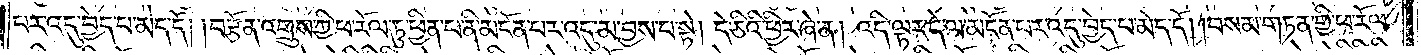པར་འདུ་བྱེད་པ་མེད་དོ། །བརྩོན་འགྲུས་ཀྱི་ཕ་རོལ་ཏུ་ཕྱིན་པ་ནི་མངོན་པར་འདུ་མ་བྱས་པ་སྟེ། དེ་ཅིའི་ཕྱིར་ཞེ་ན། འདི་ལྟར་དེ་ལ་མངོན་པར་འདུ་བྱེད་པ་མེད་དོ། །བསམ་གཏན་གྱི་ཕ་རོལ་
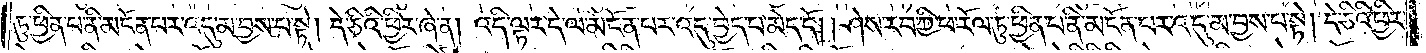ཏུ་ཕྱིན་པ་ནི་མངོན་པར་འདུ་མ་བྱས་པ་སྟེ། དེ་ཅིའི་ཕྱིར་ཞེ་ན། འདི་ལྟར་དེ་ལ་མངོན་པར་འདུ་བྱེད་པ་མེད་དོ། །ཤེས་རབ་ཀྱི་ཕ་རོལ་ཏུ་ཕྱིན་པ་ནི་མངོན་པར་འདུ་མ་བྱས་པ་སྟེ། དེ་ཅིའི་ཕྱིར་
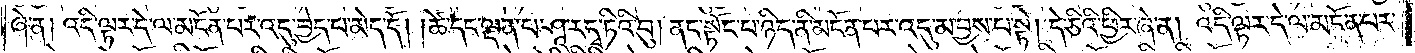ཞེ་ན། འདི་ལྟར་དེ་ལ་མངོན་པར་འདུ་བྱེད་པ་མེད་དོ། །ཚེ་དང་ལྡན་པ་ཤཱ་ར་དྭ་ཏིའི་བུ། ནང་སྟོང་པ་ཉིད་ནི་མངོན་པར་འདུ་མ་བྱས་པ་སྟེ། དེ་ཅིའི་ཕྱིར་ཞེ་ན། འདི་ལྟར་དེ་ལ་མངོན་པར་
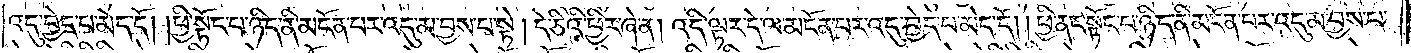འདུ་བྱེད་པ་མེད་དོ། །ཕྱི་སྟོང་པ་ཉིད་ནི་མངོན་པར་འདུ་མ་བྱས་པ་སྟེ། དེ་ཅིའི་ཕྱིར་ཞེ་ན། འདི་ལྟར་དེ་ལ་མངོན་པར་འདུ་བྱེད་པ་མེད་དོ། །ཕྱི་ནང་སྟོང་པ་ཉིད་ནི་མངོན་པར་འདུ་མ་བྱས་པ་
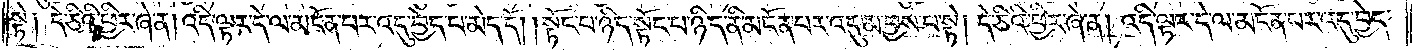སྟེ༑ དེ་ཅིའི་ཕྱིར་ཞེ་ན། འདི་ལྟར་དེ་ལ་མངོན་པར་འདུ་བྱེད་པ་མེད་དོ། །སྟོང་པ་ཉིད་སྟོང་པ་ཉིད་ནི་མངོན་པར་འདུ་མ་བྱས་པ་སྟེ། དེ་ཅིའི་ཕྱིར་ཞེ་ན། འདི་ལྟར་དེ་ལ་མངོན་པར་འདུ་བྱེད་
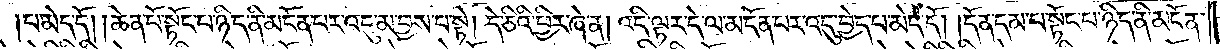པ་མེད་དོ། །ཆེན་པོ་སྟོང་པ་ཉིད་ནི་མངོན་པར་འདུ་མ་བྱས་པ་སྟེ། དེ་ཅིའི་ཕྱིར་ཞེ་ན། འདི་ལྟར་དེ་ལ་མངོན་པར་འདུ་བྱེད་པ་མེད་དོ། །དོན་དམ་པ་སྟོང་པ་ཉིད་ནི་མངོན་
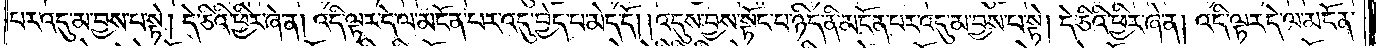པར་འདུ་མ་བྱས་པ་སྟེ། དེ་ཅིའི་ཕྱིར་ཞེ་ན། འདི་ལྟར་དེ་ལ་མངོན་པར་འདུ་བྱེད་པ་མེད་དོ། །འདུས་བྱས་སྟོང་པ་ཉིད་ནི་མངོན་པར་འདུ་མ་བྱས་པ་སྟེ། དེ་ཅིའི་ཕྱིར་ཞེ་ན། འདི་ལྟར་དེ་ལ་མངོན་
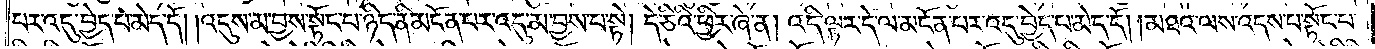པར་འདུ་བྱེད་པ་མེད་དོ། །འདུས་མ་བྱས་སྟོང་པ་ཉིད་ནི་མངོན་པར་འདུ་མ་བྱས་པ་སྟེ། དེ་ཅིའི་ཕྱིར་ཞེ་ན། འདི་ལྟར་དེ་ལ་མངོན་པར་འདུ་བྱེད་པ་མེད་དོ། །མཐའ་ལས་འདས་པ་སྟོང་པ་
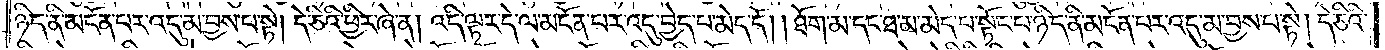ཉིད་ནི་མངོན་པར་འདུ་མ་བྱས་པ་སྟེ། དེ་ཅིའི་ཕྱིར་ཞེ་ན། འདི་ལྟར་དེ་ལ་མངོན་པར་འདུ་བྱེད་པ་མེད་དོ། །ཐོག་མ་དང་ཐ་མ་མེད་པ་སྟོང་པ་ཉིད་ནི་མངོན་པར་འདུ་མ་བྱས་པ་སྟེ། དེ་ཅིའི་
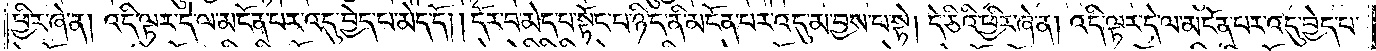ཕྱིར་ཞེ་ན། འདི་ལྟར་དེ་ལ་མངོན་པར་འདུ་བྱེད་པ་མེད་དོ། །དོར་བ་མེད་པ་སྟོང་པ་ཉིད་ནི་མངོན་པར་འདུ་མ་བྱས་པ་སྟེ། དེ་ཅིའི་ཕྱིར་ཞེ་ན། འདི་ལྟར་དེ་ལ་མངོན་པར་འདུ་བྱེད་པ་
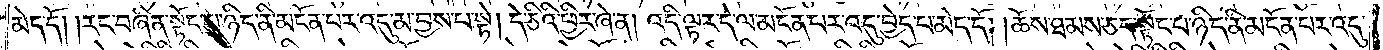མེད་དོ། །རང་བཞིན་སྟོང་པ་ཉིད་ནི་མངོན་པར་འདུ་མ་བྱས་པ་སྟེ། དེ་ཅིའི་ཕྱིར་ཞེ་ན། འདི་ལྟར་དེ་ལ་མངོན་པར་འདུ་བྱེད་པ་མེད་དོ། །ཆོས་ཐམས་ཅད་སྟོང་པ་ཉིད་ནི་མངོན་པར་འདུ་
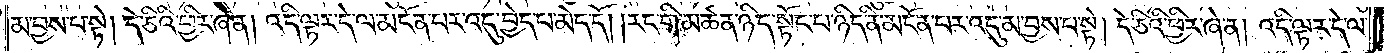མ་བྱས་པ་སྟེ། དེ་ཅིའི་ཕྱིར་ཞེ་ན། འདི་ལྟར་དེ་ལ་མངོན་པར་འདུ་བྱེད་པ་མེད་དོ། །རང་གི་མཚན་ཉིད་སྟོང་པ་ཉིད་ནི་མངོན་པར་འདུ་མ་བྱས་པ་སྟེ། དེ་ཅིའི་ཕྱིར་ཞེ་ན། འདི་ལྟར་དེ་ལ་
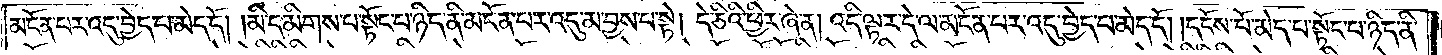མངོན་པར་འདུ་བྱེད་པ་མེད་དོ། །མི་དམིགས་པ་སྟོང་པ་ཉིད་ནི་མངོན་པར་འདུ་མ་བྱས་པ་སྟེ། དེ་ཅིའི་ཕྱིར་ཞེ་ན། འདི་ལྟར་དེ་ལ་མངོན་པར་འདུ་བྱེད་པ་མེད་དོ། །དངོས་པོ་མེད་པ་སྟོང་པ་ཉིད་ནི་
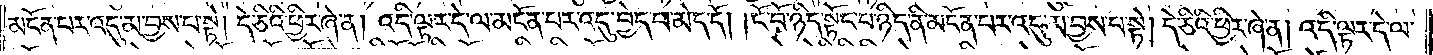མངོན་པར་འདུ་མ་བྱས་པ་སྟེ། དེ་ཅིའི་ཕྱིར་ཞེ་ན། འདི་ལྟར་དེ་ལ་མངོན་པར་འདུ་བྱེད་པ་མེད་དོ། །ངོ་བོ་ཉིད་སྟོང་པ་ཉིད་ནི་མངོན་པར་འདུ་མ་བྱས་པ་སྟེ། དེ་ཅིའི་ཕྱིར་ཞེ་ན། འདི་ལྟར་དེ་ལ་
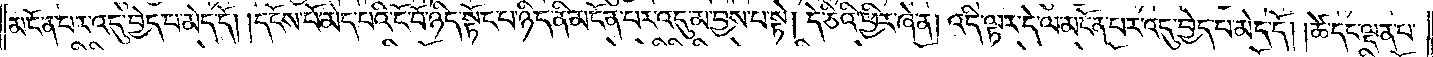མངོན་པར་འདུ་བྱེད་པ་མེད་དོ། །དངོས་པོ་མེད་པའི་ངོ་བོ་ཉིད་སྟོང་པ་ཉིད་ནི་མངོན་པར་འདུ་མ་བྱས་པ་སྟེ། དེ་ཅིའི་ཕྱིར་ཞེ་ན། འདི་ལྟར་དེ་ལ་མངོན་པར་འདུ་བྱེད་པ་མེད་དོ། །ཚེ་དང་ལྡན་པ་
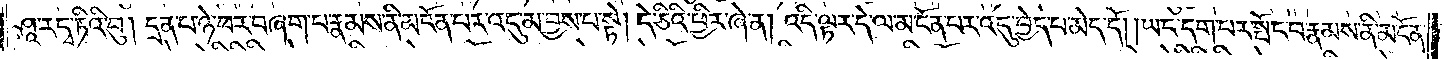ཤཱ་ར་དྭ་ཏིའི་བུ། དྲན་པ་ཉེ་བར་བཞག་པ་རྣམས་ནི་མངོན་པར་འདུ་མ་བྱས་པ་སྟེ། དེ་ཅིའི་ཕྱིར་ཞེ་ན། འདི་ལྟར་དེ་ལ་མངོན་པར་འདུ་བྱེད་པ་མེད་དོ། །ཡང་དག་པར་སྤོང་བ་རྣམས་ནི་མངོན་
